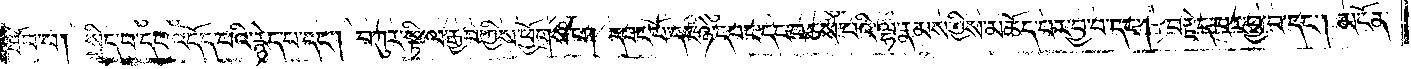ཐོབ་པ། སྲིད་པ་དང་འདོད་པའི་རྙེད་པ་དང༌། བཀུར་སྟི་ལ་རྒྱབ་ཀྱིས་ཕྱོགས་པ། དབང་པོ་དང་ཉེ་དབང་དང་བཅས་པའི་ལྷ་རྣམས་ཀྱིས་མཆོད་པར་བྱ་བ་དང༌། བརྗེད་པར་བྱ་བ་དང༌། མངོན་
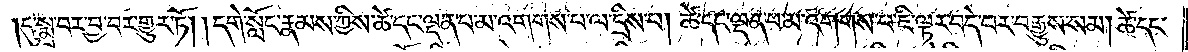དུ་སྨྲ་བར་བྱ་བར་གྱུར་ཏོ། །དགེ་སློང་རྣམས་ཀྱིས་ཚེ་དང་ལྡན་པ་མ་འགགས་པ་ལ་དྲིས་པ། ཚེ་དང་ལྡན་པ་མ་འགགས་པ་ཇི་ལྟར་བདེ་བར་བརྒྱུས་སམ། ཚེ་དང་
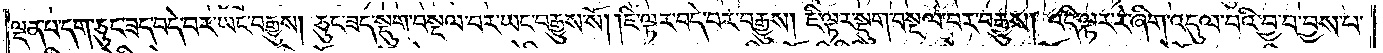ལྡན་པ་དག་ཅུང་ཟད་བདེ་བར་ཡང་བརྒྱུས། ཅུང་ཟད་སྡུག་བསྔལ་བར་ཡང་བརྒྱུས་སོ། །ཇི་ལྟར་བདེ་བར་བརྒྱུས། ཇི་ལྟར་སྡུག་བསྔལ་བར་བརྒྱུས། འདི་ལྟར་རེ་ཞིག་འདུལ་བའི་བྱ་བ་བྱས་པ་
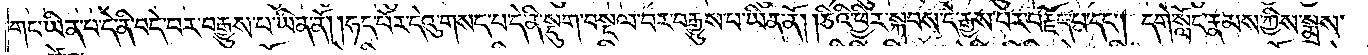གང་ཡིན་པ་དེ་ནི་བདེ་བར་བརྒྱུས་པ་ཡིན་ནོ། །ཧད་པོར་དེའུ་གསད་པ་དེ་ནི་སྡུག་བསྔལ་བར་བརྒྱུས་པ་ཡིན་ནོ། །ཅིའི་ཕྱིར་སྐབས་དེ་རྒྱས་པར་བརྗོད་པ་དང༌། དགེ་སློང་རྣམས་ཀྱིས་སྨྲས་
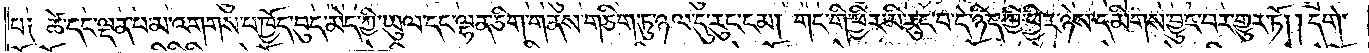པ༑ ཚེ་དང་ལྡན་པ་མ་འགགས་པ་ཁྱོད་བུད་མེད་ཀྱི་ཡུལ་དང་ལྷན་ཅིག་གནས་གཅིག་ཏུ་ཉལ་དུ་རུང་ངམ། གང་གི་ཕྱིར་མི་རུང་བ་དེ་ཉིད་ཀྱི་ཕྱིར་ཉེས་དམིགས་བྱུང་བར་གྱུར་ཏོ། །དགེ་
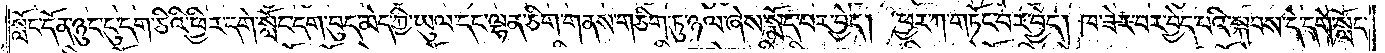སློང་དོན་ཉུང་ངུ་དག་ཅིའི་ཕྱིར་དགེ་སློང་དག་བུད་མེད་ཀྱི་ཡུལ་དང་ལྷན་ཅིག་གནས་གཅིག་ཏུ་ཉལ་ཞེས་སྨོད་པར་བྱེད། ཕྱར་ཀ་གཏོང་བར་བྱེད། ཁ་ཟེར་བར་བྱེད་པའི་སྐབས་དེ་དགེ་སློང་
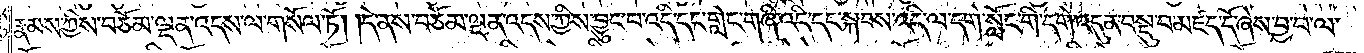རྣམས་ཀྱིས་བཅོམ་ལྡན་འདས་ལ་གསོལ་ཏོ། །དེ་ནས་བཅོམ་ལྡན་འདས་ཀྱིས་བྱུང་བ་འདི་དང་གླེང་གཞི་འདི་དང་སྐབས་འདི་ལ་དགེ་སློང་གི་དགེ་འདུན་བསྡུ་བ་མཛད་དོ་ཞེས་བྱ་བ་ལ་
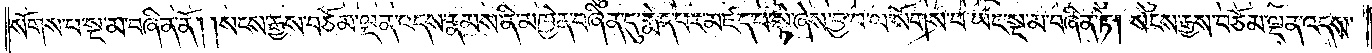སོགས་པ་སྔ་མ་བཞིན་ནོ། །སངས་རྒྱས་བཅོམ་ལྡན་འདས་རྣམས་ནི་མཁྱེན་བཞིན་དུ་རྨེད་པར་མཛད་པ་སྟེ་ཞེས་བྱ་བ་ལ་སོགས་པ་ཡང་སྔ་མ་བཞིན་ཏེ། སངས་རྒྱས་བཅོམ་ལྡན་འདས་
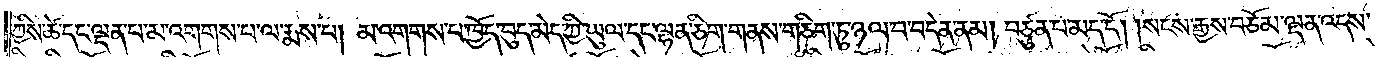ཀྱིས་ཚེ་དང་ལྡན་པ་མ་འགགས་པ་ལ་རྨས་པ། མ་འགགས་པ་ཁྱོད་བུད་མེད་ཀྱི་ཡུལ་དང་ལྷན་ཅིག་གནས་གཅིག་ཏུ་ཉལ་བ་བདེན་ནམ། བཙུན་པ་མད་དོ། །སངས་རྒྱས་བཅོམ་ལྡན་འདས་
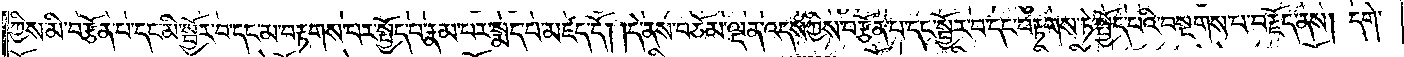ཀྱིས་མི་བརྩོན་པ་དང་མི་སྦྱོར་བ་དང་མ་བརྟགས་པར་སྤྱོད་པ་རྣམ་པར་སྨད་པ་མཛད་དོ། །དེ་ནས་བཅོམ་ལྡན་འདས་ཀྱིས་བརྩོན་པ་དང་སྦྱོར་བ་དང་བརྟགས་ཏེ་སྤྱོད་པའི་བསྔགས་པ་བརྗོད་ནས། དགེ་
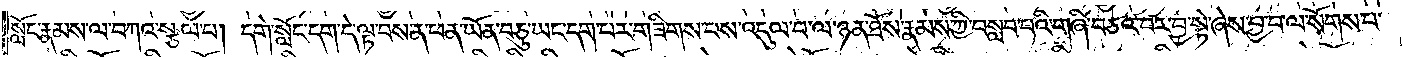སློང་རྣམས་ལ་བཀའ་སྩལ་པ། དགེ་སློང་དག་དེ་ལྟ་བས་ན་ཕན་ཡོན་བཅུ་ཡང་དག་པར་གཟིགས་པས་འདུལ་བ་ལ་ཉན་ཐོས་རྣམས་ཀྱི་བསླབ་པའི་གཞི་བཅའ་བར་བྱ་སྟེ་ཞེས་བྱ་བ་ལ་སོགས་པ་
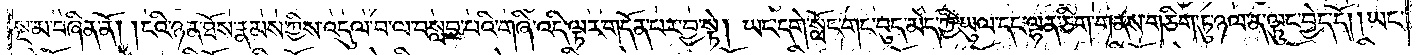སྔ་མ་བཞིན་ནོ། །ངའི་ཉན་ཐོས་རྣམས་ཀྱིས་འདུལ་བ་ལ་བསླབ་པའི་གཞི་འདི་ལྟར་གདོན་པར་བྱ་སྟེ། ཡང་དགེ་སློང་གང་བུད་མེད་ཀྱི་ཡུལ་དང་ལྷན་ཅིག་གནས་གཅིག་ཏུ་ཉལ་ན་ལྟུང་བྱེད་དོ། །ཡང་
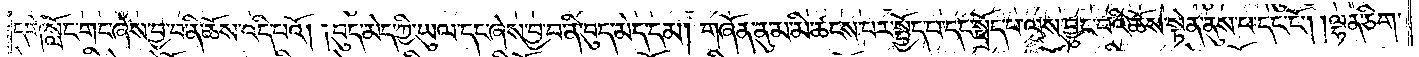དགེ་སློང་གང་ཞེས་བྱ་བ་ནི་ཆོས་འདི་པའོ། །བུད་མེད་ཀྱི་ཡུལ་དང་ཞེས་བྱ་བ་ནི་བུད་མེད་དམ། གཞོན་ནུ་མ་མི་ཚངས་པར་སྤྱོད་པ་དང་སྤྲོད་པ་ལས་བྱུང་བའི་ཆོས་སྟེན་ནུས་པ་དང་ངོ༌། །ལྷན་ཅིག་
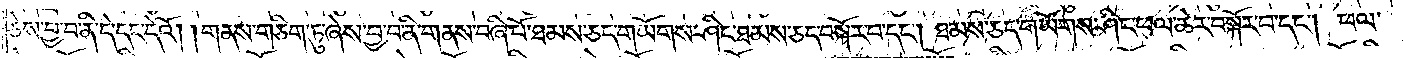ཅེས་བྱ་བ་ནི་དེ་དང་དེའོ། །གནས་གཅིག་ཏུ་ཞེས་བྱ་བ་ནི་གནས་བཞི་པོ་ཐམས་ཅད་གཡོགས་ཤིང་ཐམས་ཅད་བསྐོར་བ་དང༌། ཐམས་ཅད་གཡོགས་ཤིང་ཕལ་ཆེར་བསྐོར་བ་དང༌། ཕལ་
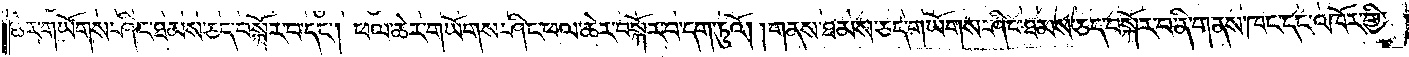ཆེར་གཡོགས་ཤིང་ཐམས་ཅད་བསྐོར་བ་དང༌། ཕལ་ཆེར་གཡོགས་ཤིང་ཕལ་ཆེར་བསྐོར་བ་དག་ཏུའོ། །གནས་ཐམས་ཅད་གཡོགས་ཤིང་ཐམས་ཅད་བསྐོར་བ་ནི་གནས་ཁང་དང་འཁོར་གྱི་
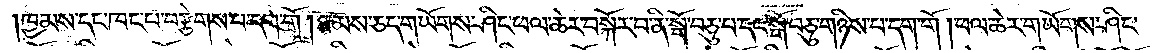ཁྱམས་དང་ཁང་པ་བརྩེགས་པ་དག་གོ །ཐམས་ཅད་གཡོགས་ཤིང་ཕལ་ཆེར་བསྐོར་བ་ནི་སྒོ་བཅུ་པ་དང་སྒོ་བཅུ་གཉིས་པ་དག་གོ །ཕལ་ཆེར་གཡོགས་ཤིང་
